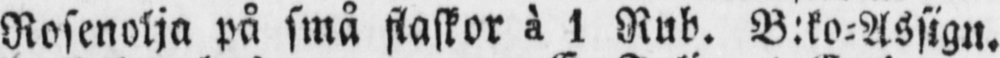Rosenolja på små flaskor à 1 Rub. B:ko-Assign.
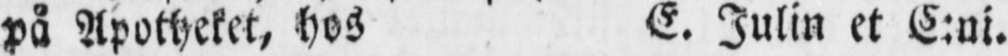på Apotheket, hos E. Julin et C:ni.
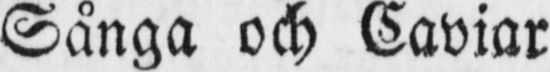Sånga och Caviar
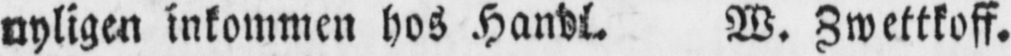nyligen inkommen hos Handl. W. Zwettkoff.
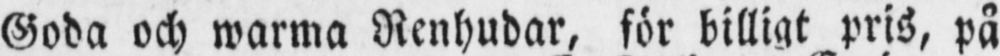Goda och warma Renhudar, för billigt pris, på
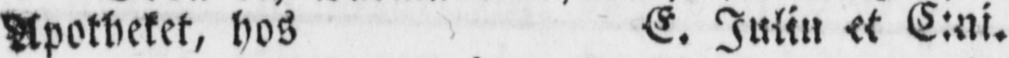Apotheket, hos E. Julin et C:ni.
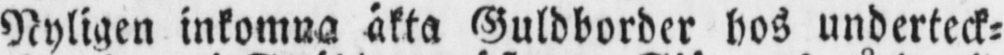Nyligen inkomna åtta Guldborder hos underteck-
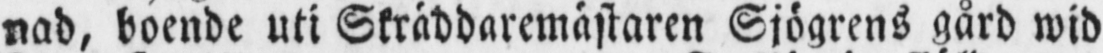nad, boende uti Skräddaremästaren Sjögrens gård wid
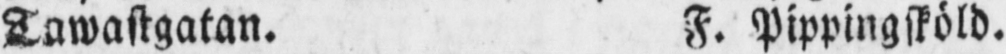Tawastgatan. F. Pippingsköld.
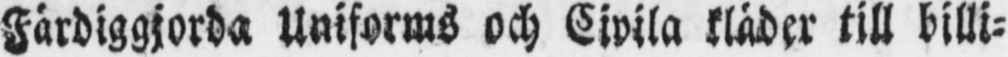Färdiggjorda Uniforms och Civila kläder till billi-
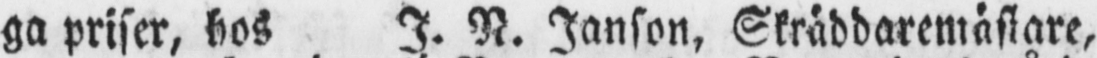ga priser, hos I. N. Janson, Skräddaremästare,
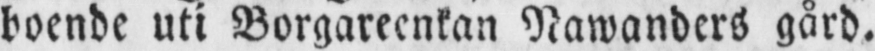boende uti Borgareenkan Nawanders gård.
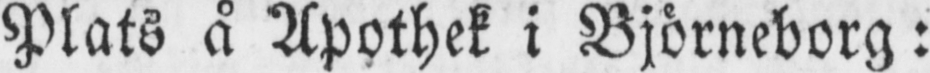Plats å Apothek i Björneborg:
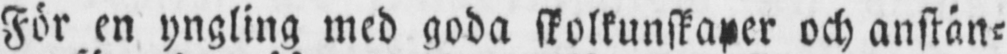För en yngling med goda skolkunskaper och anstän-
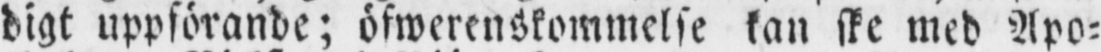digt uppförande; öfwerenskommelse kan ske med Apo-
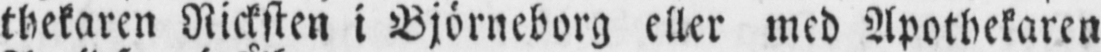thekaren Ricksten i Björneborg eller med Apothekaren
